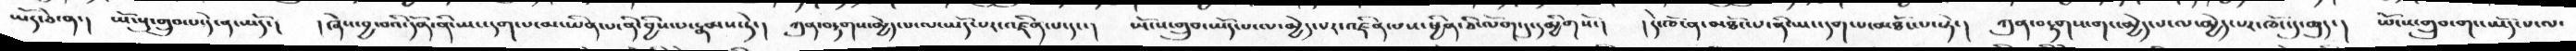ཡོད་ཅེ་ན་།  ཡོངསུ་གྲུབ་པ་དེ་ན་ཡོད་།  །ཞེས་བྱ་བའི་དོན་ནི་ཡང་དག་པ་མ་ཡིན་པ་ནི་བྱིས་པ་རྣམས་ཏེ་།  ཀུན་བརྟགས་མྱེད་པ་ལ་ཡོད་པར་འཛིན་པ་དང་།  ཡོངས་གྲུབ་ཡོད་པ་ལ་མྱེད་པར་འཛིན་པས་ཕྱིན་ཅི་ལོག་དུ་དམྱིགསོ་།  །དེ་ཁོ་ན་མཐོང་པ་ནི་ཡང་དག་པ་མཐོང་པ་སྟེ་།   ཀུན་བརྟགས་གང་མྱེད་པ་ལ་མྱེད་པར་ཁོང་དུ་ཆུད་།  ཡོངས་གྲུབ་གང་ཡོད་པ་ལ་
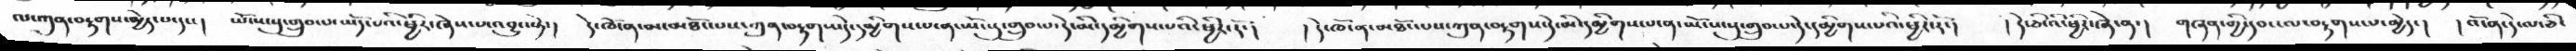ལ་ཀུན་བརྟགས་མྱེད་པ་དང་།  ཡོངས་སུ་གྲུབ་པ་ཡོད་པའི་ཕྱིར་ཞེས་པ་འབྱུང་སྟེ་།  དེ་ཁོ་ན་མ་མཐོང་པས་ཀུན་བརྟགས་དེ་དམྱིགས་པ་ན་ཡོངསུ་གྲུབ་པ་དེ་མི་དམྱིགས་པའི་ཕྱིར་རོ་།  ། དེ་ཁོ་ན་མཐོང་པས་ཀུན་བརྟགས་དེ་མི་དམྱིགས་པ་ན་ཡོངས་སུ་གྲུབ་པ་དེ་དམྱིགས་པའི་ཕྱིར་རོ་།  ། དེ་ཅི་འི་ཕྱིར་ཞེ་ན་།  གཞན་གྱི་དབང་ལ་བརྟགས་པ་མྱེད་།  ། འོ་ན་དེ་ལ་ཅི་
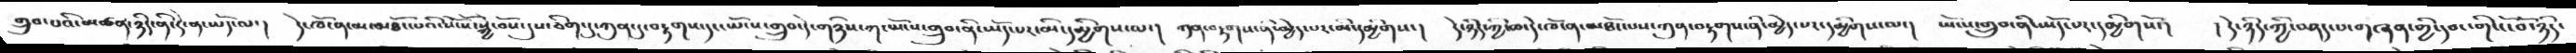གྲུབ་པའི་མཚན་ཉིད་ནི་དེ་ན་ཡོད་ལ་།  དེ་ཁོ་ན་མ་མཐོང་པའི་སོ་སོ་སྐྱེ་བོས་དུས་ཅིག་དུ་ཀུན་དུ་བརྟགས་དང་ཡོངས་གྲུབ་དེ་གཉིས་ཀ་ཡོངས་གྲུབ་ནི་ཡོད་པར་མི་དམྱིགས་ལ་།  ཀུན་བརྟགས་ནི་མྱེད་པར་མི་དམྱིགས་།  དེ་ཉིད་ཀྱི་ཆ་དེ་ཁོ་ན་མཐོང་པས་ཀུན་བརྟགས་ནི་མྱེད་པར་དམྱིགས་ལ་།  ཡོངས་གྲུབ་ནི་ཡོད་པར་དམྱིགསོ་།  ། དེ་ཉིད་ཀྱི་བཤད་པ་གཞན་གྱི་དབང་གི་ངོ་བོ་ཉིད་
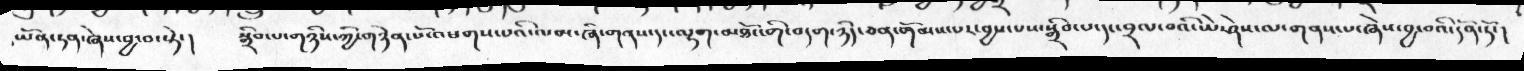ཡོན་་ཏན་ཞེས་བྱ་བ་སྟེ་།  སྒྲིབ་པ་གཉིས་ཀྱི་གཉེན་པོ་འཕགས་པའི་ལམ་ཞི་གནས་དང་ལྷག་མཐོང་གི་བདག་ཉིད་ཅན་གོམས་པར་བྱས་པས་སྒྲིབ་པ་དང་བྲལ་བའི་ཡེ་ཤེས་ལ་གནས་པ་ཞེས་བྱ་བའི་དོན་ཏོ་།
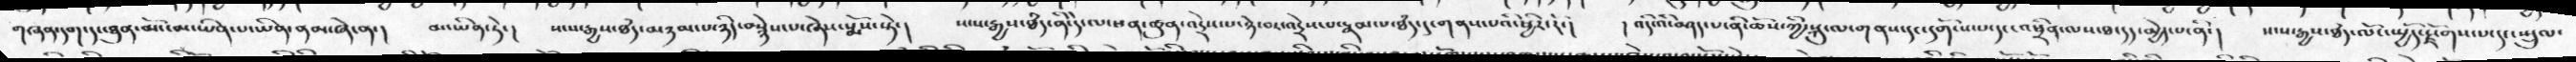གཞན་དག་དུ་ཐུན་མོང་མ་ཡིན་པ་ཡིན་ནམ་ཞེ་ན་།   མ་ཡིན་ཏེ་།   སངས་རྒྱས་ཐཾད་མཉམ་པ་ཉིད་བསྙེས་པ་ཞེས་སྨོས་ཏེ་།   སངས་རྒྱས་ཐཾད་ནི་དེ་ལ་ཕན་ཚུན་འདྲེས་པ་ཉེ་བར་འདྲེས་པ་རྣམ་པ་ཐཾད་དུ་གནས་པའི་ཕྱིར་རོ་།  །འདི་འི་བཤད་པ་ནི་ཆོས་ཀྱི་སྐུ་ལ་གནས་དང་དགོངས་པ་དང་འཕྲིན་ལས་ཐ་དད་མྱེད་པ་ནི་།  སངས་རྒྱས་ཐཾད་ལོང་སྤྱོད་རྫོགས་པ་དང་སྤྲུལ་
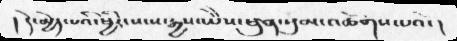།  དེ་མྱེད་པའི་ཕྱིར་སངས་རྒྱས་ཡཻས་ཕུན་སུམ་འཚོགས་པའོ་།
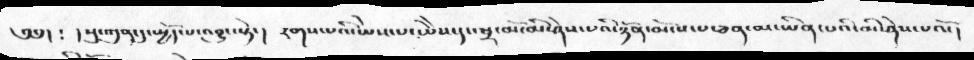༄༅། ༴  །སུ་ཀུན་དུ་སྤྱོད་པ་འབྱུང་སྟེ་།   རགས་པའི་ཡེས་པ་ཡཻས་དང་ཕྲ་མོ་མི་ཤེས་པའི་ཉོན་མོངས་པ་ཅན་མ་ཡིན་པའི་མི་ཤེས་པའོ་།
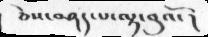ཅེས་བཤད་པ་ལྟ་བུའོ་།
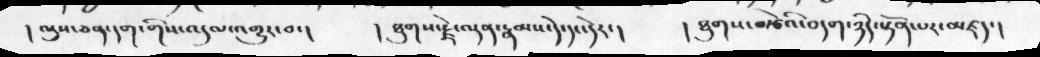། ལུས་ཅན་དག་གིས་འདུལ་འགྱུར་བ་།  ། ཐུགས་རྗེ་ལྡན་རྣམས་དེ་དང་དེར་།   །ཐུགས་བརྩེའི་བདག་ཉིད་སྟོན་པར་མཛད་།
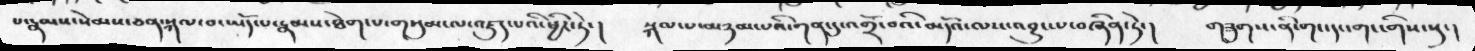པ་རྣམས་སེམས་ཅན་སྐལ་བ་ཡོད་པ་རྣམས་ཐེག་པ་གསུམ་ལ་འཛུད་པའི་ཕྱིར་ཏེ་།   སྐལ་པ་མཉམ་པའི་གན་དུ་འགྲོ་བའི་མདོའ་ལས་འབྱུང་པ་བཞིན་ཏེ་།  གཟུགས་ནི་གང་དང་གང་གིས་སུ་།
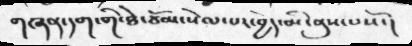གཞན་དག་གི་ཐེ་ཙོམ་སེལ་པར་བྱེད་མི་ནུས་པསོ་།
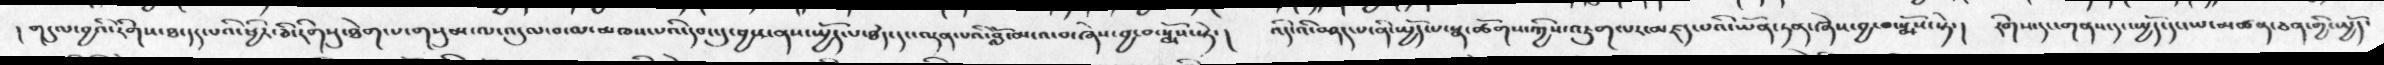། གདུལ་བྱའི་རིགས་ཐ་དད་པའི་ཕྱིར་ཅི་རིགསུ་ཐེག་པ་གསུམ་ལ་འདུལ་བ་ལ་མཁས་པའི་དབང་དུ་བྱས་ནས་སྤྱོད་པ་ཐདཾ་དང་ལྡན་པའི་བློ་མངའ་བ་ཞེས་བྱ་བ་སྨོས་སྟེ་།  འདི་འི་བཤད་པ་ནི་སྤྱོད་པ་སྣ་ཚོགས་ཀྱིས་འཇུག་པར་མཛད་པའི་ཡོན་ཏན་ཞེས་བྱ་བ་སྨོས་སྟེ་།  རིགས་དང་གནས་དང་སྤྱོད་དང་ཡ་མཚན་ཅན་གྱི་སྤྱོད་
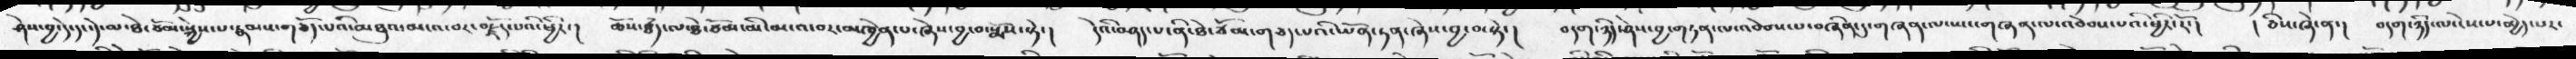ཤེས་བྱ་དེ་དང་དེ་ལ་ཐེ་ཙོམ་སྐྱེས་པ་རྣམས་གཅོད་པའི་མཐུའ་མངའ་བར་བརྗོད་པའི་ཕྱིར་།  ཆོས་ཐདཾ་ལ་ཐེ་ཙོམ་མི་མངའ་བར་མཁྱེན་པ་ཞེས་བྱ་བ་སྨོས་སྟེ་།  དེའི་བཤད་པ་ནི་ཐེ་ཙོམ་གཅད་པའི་ཡོན་ཏན་ཞེས་བྱ་བ་སྟེ་།  བདག་ཉིད་ཤེས་བྱ་གཏན་ལ་འབེབས་པ་བཞིན་དུ་གཞན་ལ་ཡང་གཞན་ལ་འབེབས་པའི་ཕྱིར་རོ་།  ། ཅིས་ཞེ་ན་།  བདག་ཉིད་ལ་ངེས་པ་མྱེད་པར་
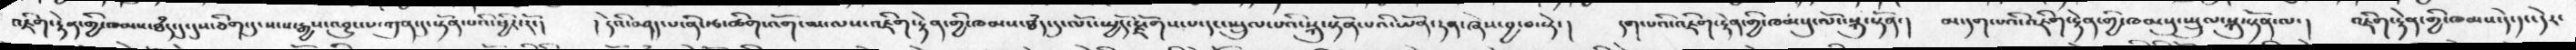འཇིག་རྟེན་གྱི་ཁམས་ཐདཾ་དུས་ཅིག་དུ་སངས་རྒྱས་འབྱུང་པ་ཀུན་དུ་སྟོན་པའི་ཕྱིར་རོ་།   །དེའི་བཤད་པ་ནི་རྩ་ཚིག་འོག་མ་ལ་འཇིག་རྟེན་གྱི་ཁམས་ཐདཾ་དུ་ལོངས་སྤྱོད་རྫོགས་པ་དང་སྤྲུལ་པའི་སྐུ་སྟོན་པའི་ཡོན་ཏན་ཞེས་བྱ་བ་སྟེ་།  དག་པའི་འཇིག་རྟེན་གྱི་ཁམསུ་ལོང་སྐུ་སྟོན་།  མ་དག་པའི་འཇིག་རྟེན་གྱི་ཁམསུ་སྤྲུལ་སྐུ་སྟོན་ལ་།  འཇིག་རྟེན་གྱི་ཁམས་དེ་དང་དེར་
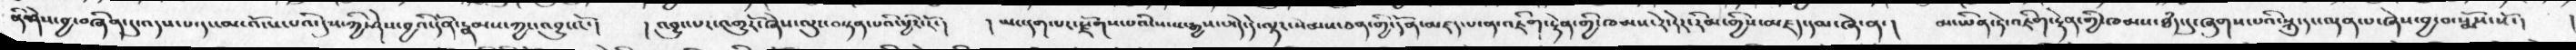ནི་ཤེས་བྱ་བཞིན་དུ་འདས་པ་དང་མ་འོངས་པའི་དུས་ཀྱི་ཤེས་བྱའི་དོན་རྣམས་ཀྱང་འབྱུང་ངོ་།  ། འབྱུང་པར་འགྱུརོ་ཞེས་ལུང་བསྟན་པའི་ཕྱིར་རོ་།  ། ཡང་དག་པར་རྫོགས་པའི་སངས་རྒྱས་ཡེད་དེ་ལྟར་སེམས་ཅན་གྱི་དོན་མཛད་པ་ན་འཇིག་རྟེན་གྱི་ཁམས་རེ་རེར་རིམ་གྱིས་མཛད་དམ་ཞེ་ན་།  མ་ཡིན་ཏེ་འཇིག་རྟེན་གྱི་ཁམས་ཐདཾ་དུ་ཞུགས་པའི་སྐུ་དང་ལྡན་པ་ཞེས་བྱ་བ་སྨོས་སོ་།   །
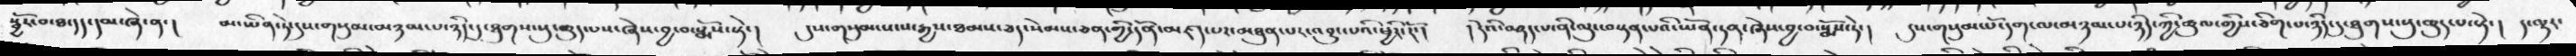སྦྱོར་བ་ཐ་དད་དམ་ཞེ་ན་།  མ་ཡིན་ཏེ་དུས་གསུམ་མཉམ་པ་ཉིད་དུ་ཐུགས་སུ་ཆུད་པས་ཞེས་བྱ་བ་སྨོས་སྟེ་།  དུས་གསུམ་སངས་རྒྱས་ཐམས་ཅད་སེམས་ཅན་གྱི་དོན་མཛད་པར་མཐུན་པར་འབྱུང་པའི་ཕྱིར་རོ་།  ། དེའི་བཤད་པ་ནི་ལུང་བསྟན་ཡོན་ཏན་ཞེས་བྱ་བ་སྨོས་ཏེ་།  དུས་གསུམ་པོ་དག་ལ་མཉམ་པ་ཉིད་ཀྱི་ཚུལ་གྱིས་ཅིག་པ་ཉིད་དུ་ཐུགས་སུ་ཆུད་པ་སྟེ་།   ད་ལྟར་
